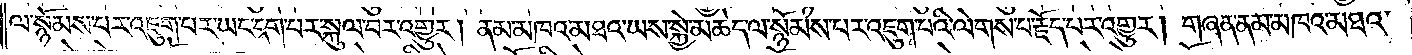ལ་སྙོམས་པར་འཇུག་པར་ཡང་དག་པར་སྐུལ་བར་འགྱུར། ནམ་མཁའ་མཐའ་ཡས་སྐྱེ་མཆེད་ལ་སྙོམས་པར་འཇུག་པའི་ལེགས་པ་རྗོད་པར་འགྱུར། གཞན་ནམ་མཁའ་མཐའ་
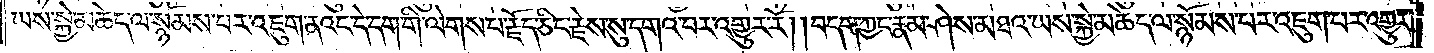ཡས་སྐྱེ་མཆེད་ལ་སྙོམས་པར་འཇུག་ནའང་དེ་དག་གི་ལེགས་པ་རྗོད་ཅིང་རྗེས་སུ་དགའ་བར་འགྱུར་རོ། །བདག་ཀྱང་རྣམ་ཤེས་མཐའ་ཡས་སྐྱེ་མཆེད་ལ་སྙོམས་པར་འཇུག་པར་འགྱུར།
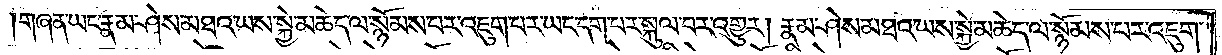གཞན་ཡང་རྣམ་ཤེས་མཐའ་ཡས་སྐྱེ་མཆེད་ལ་སྙོམས་པར་འཇུག་པར་ཡང་དག་པར་སུལ་སྐུལ་བར་འགྱུར། རྣམ་ཤེས་མཐའ་ཡས་སྐྱེ་མཆེད་ལ་སྙོམས་པར་འཇུག་
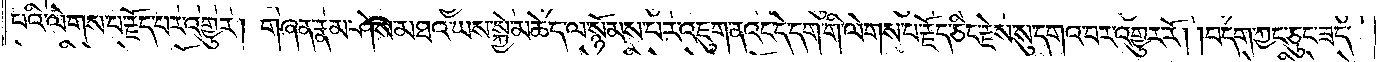པའི་ལེགས་པ་རྗོད་པར་འགྱུར། གཞན་རྣམ་ཤེས་མཐའ་ཡས་སྐྱེ་མཆེད་ལ་སྙོམས་པར་འཇུག་ནའང་དེ་དག་གི་ལེགས་པ་རྗོད་ཅིང་རྗེས་སུ་དགའ་བར་འགྱུར་རོ། །བདག་ཀྱང་ཅུང་ཟད་
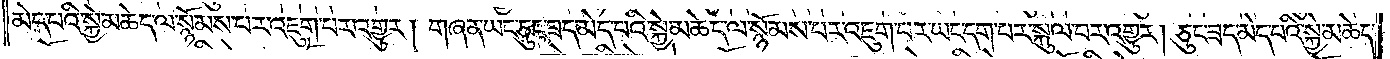མེད་པའི་སྐྱེ་མཆེད་ལ་སྙོམས་པར་འཇུག་པར་འགྱུར། གཞན་ཡང་ཅུང་ཟད་མེད་པའི་སྐྱེ་མཆེད་ལ་སྙོམས་པར་འཇུག་པར་ཡང་དག་པར་སྐུལ་བར་འགྱུར། ཅུང་ཟད་མེད་པའི་སྐྱེ་མཆེད་
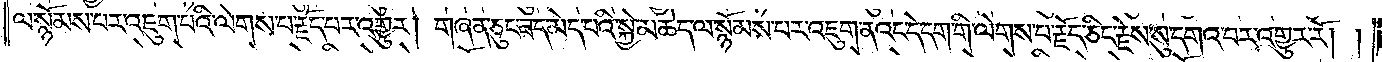ལ་སྙོམས་པར་འཇུག་པའི་ལེགས་པ་རྗོད་པར་འགྱུར། གཞན་ཅུང་ཟད་མེད་པའི་སྐྱེ་མཆེད་ལ་སྙོམས་པར་འཇུག་ནའང་དེ་དག་གི་ལེགས་པ་རྗོད་ཅིང་རྗེས་སུ་དགའ་བར་འགྱུར་རོ། །
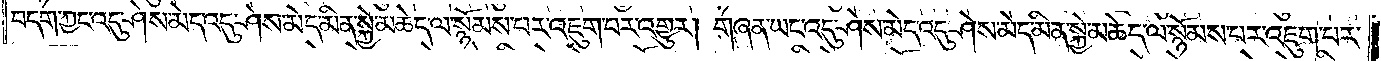བདག་ཀྱང་འདུ་ཤེས་མེད་འདུ་ཤེས་མེད་མིན་སྐྱེ་མཆེད་ལ་སྙོམས་པར་འཇུག་པར་འགྱུར། གཞན་ཡང་འདུ་ཤེས་མེད་འདུ་ཤེས་མེད་མིན་སྐྱེ་མཆེད་ལ་སྙོམས་པར་འཇུག་པར་
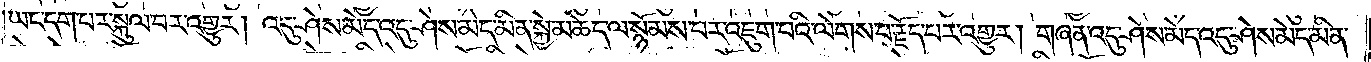ཡང་དག་པར་སྐུལ་བར་འགྱུར། འདུ་ཤེས་མེད་འདུ་ཤེས་མེད་མིན་སྐྱེ་མཆེད་ལ་སྙོམས་པར་འཇུག་པའི་ལེགས་པ་རྗོད་པར་འགྱུར། གཞན་འདུ་ཤེས་མེད་འདུ་ཤེས་མེད་མིན་
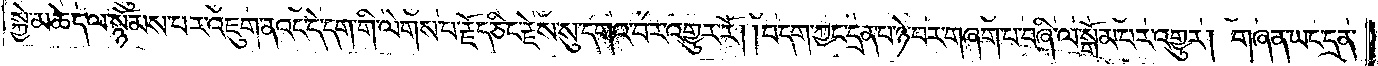སྐྱེ་མཆེད་ལ་སྙོམས་པར་འཇུག་ནའང་དེ་དག་གི་ལེགས་པ་རྗོད་ཅིང་རྗེས་སུ་དགའ་བར་འགྱུར་རོ། །བདག་ཀྱང་དྲན་པ་ཉེ་བར་བཞག་པ་བཞི་ལ་སྒོམ་པར་འགྱུར། གཞན་ཡང་དྲན་
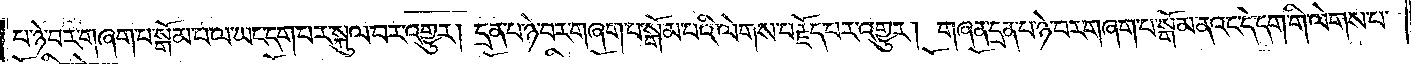པ་ཉེ་བར་གཞག་པ་སྒོམ་པ་ལ་ཡང་དག་པར་སྐུལ་བར་འགྱུར། དྲན་པ་ཉེ་བར་གཞག་པ་སྒོམ་པའི་ལེགས་པ་རྗོད་པར་འགྱུར། གཞན་དྲན་པ་ཉེ་བར་གཞག་པ་སྒོམ་ནའང་དེ་དག་གི་ལེགས་པ་
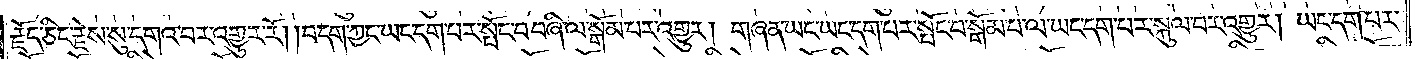རྗོད་ཅིང་རྗེས་སུ་དགའ་བར་འགྱུར་རོ། །བདག་ཀྱང་ཡང་དག་པར་སྤོང་བ་བཞི་ལ་སྒོམ་པར་འགྱུར། གཞན་ཡང་ཡང་དག་པར་སྤོང་བ་སྒོམ་པ་ལ་ཡང་དག་པར་སྐུལ་བར་འགྱུར། ཡང་དག་པར་
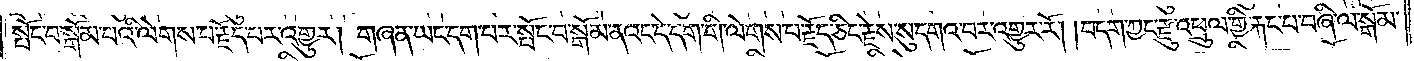སྤོང་བ་སྒོམ་པའི་ལེགས་པ་རྗོད་པར་འགྱུར། གཞན་ཡང་དག་པར་སྤོང་བ་སྒོམ་ནའང་དེ་དག་གི་ལེགས་པ་རྗོད་ཅིང་རྗེས་སུ་དགའ་བར་འགྱུར་རོ། །བདག་ཀྱང་རྫུ་འཕྲུལ་གྱི་རྐང་པ་བཞི་ལ་སྒོམ་
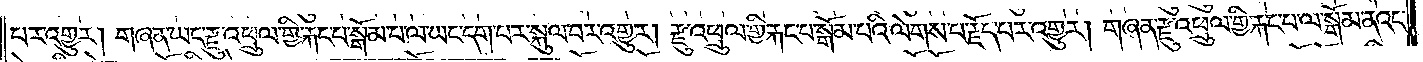པར་འགྱུར། གཞན་ཡང་རྫུ་འཕྲུལ་གྱི་རྐང་པ་སྒོམ་པ་ལ་ཡང་དག་པར་སྐུལ་བར་འགྱུར། རྫུ་འཕྲུལ་གྱི་རྐང་པ་སྒོམ་པའི་ལེགས་པ་རྗོད་པར་འགྱུར། གཞན་རྫུ་འཕྲུལ་གྱི་རྐང་པ་ལ་སྒོམ་ནའང་
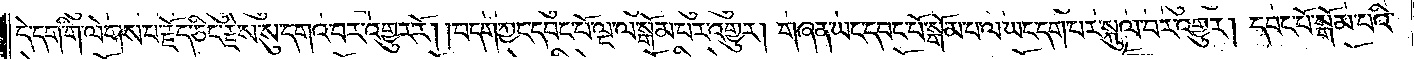དེ་དག་གི་ལེགས་པ་རྗོད་ཅིང་རྗེས་སུ་དགའ་བར་འགྱུར་རོ། །བདག་ཀྱང་དབང་པོ་ལྔ་ལ་སྒོམ་པར་འགྱུར། གཞན་ཡང་དབང་པོ་སྒོམ་པ་ལ་ཡང་དག་པར་སྐུལ་བར་འགྱུར། དབང་པོ་སྒོམ་པའི་
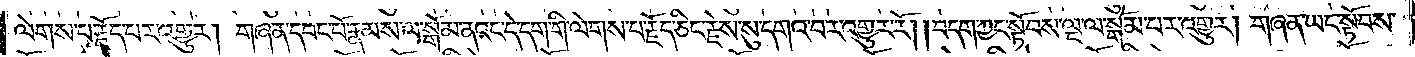ལེགས་པ་རྗོད་པར་འགྱུར། གཞན་དབང་པོ་རྣམས་ལ་སྒོམ་ནའང་དེ་དག་གི་ལེགས་པ་རྗོད་ཅིང་རྗེས་སུ་དགའ་བར་འགྱུར་རོ། །བདག་ཀྱང་སྟོབས་ལྔ་ལ་སྒོམ་པར་འགྱུར། གཞན་ཡང་སྟོབས་
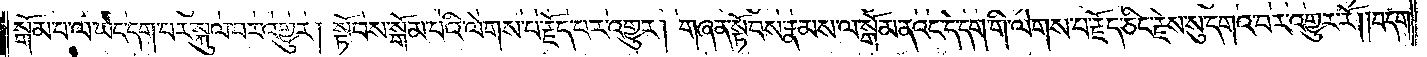སྒོམ་པ་ལ་ཡང་དག་པར་སྐུལ་བར་འགྱུར། སྟོབས་སྒོམ་པའི་ལེགས་པ་རྗོད་པར་འགྱུར། གཞན་སྟོབས་རྣམས་ལ་སྒོམ་ནའང་དེ་དག་གི་ལེགས་པ་རྗོད་ཅིང་རྗེས་སུ་དགའ་བར་འགྱུར་རོ། །བདག་
